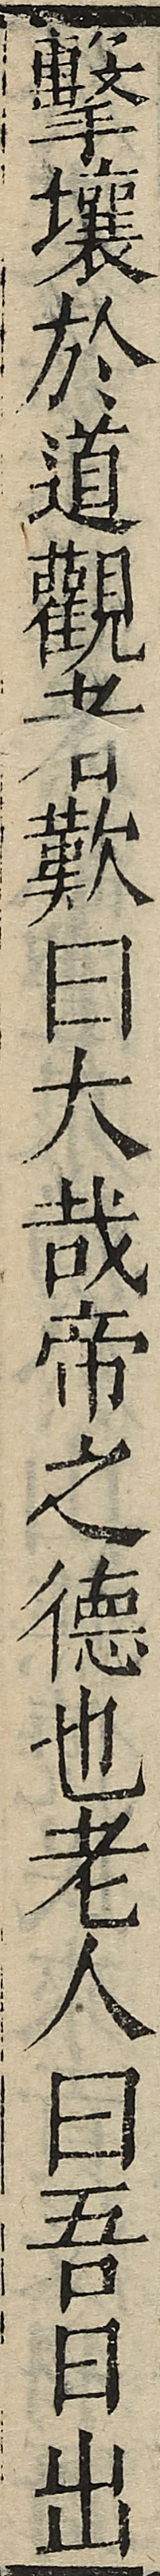擊壤於道觀者歎曰大哉帝之德也老人曰吾日出
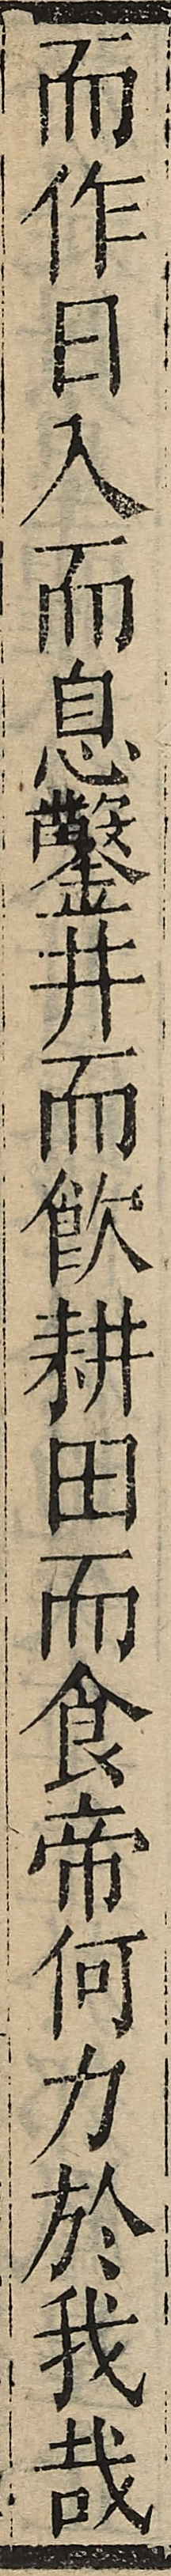而作日入而息鑿井而飲耕田而食帝何力於我哉
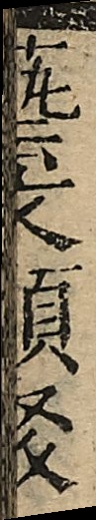藝文類聚
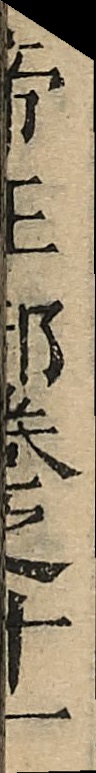帝王部卷之十一
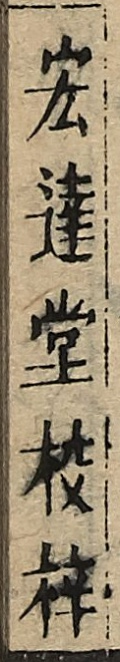宏達堂校梓
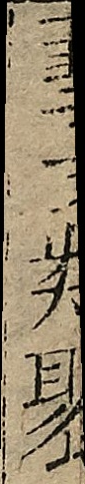藝文類聚
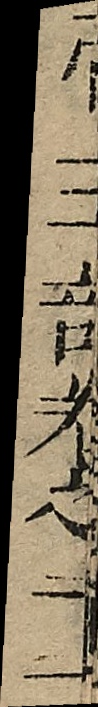帝王部卷之十一
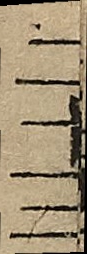二十三
